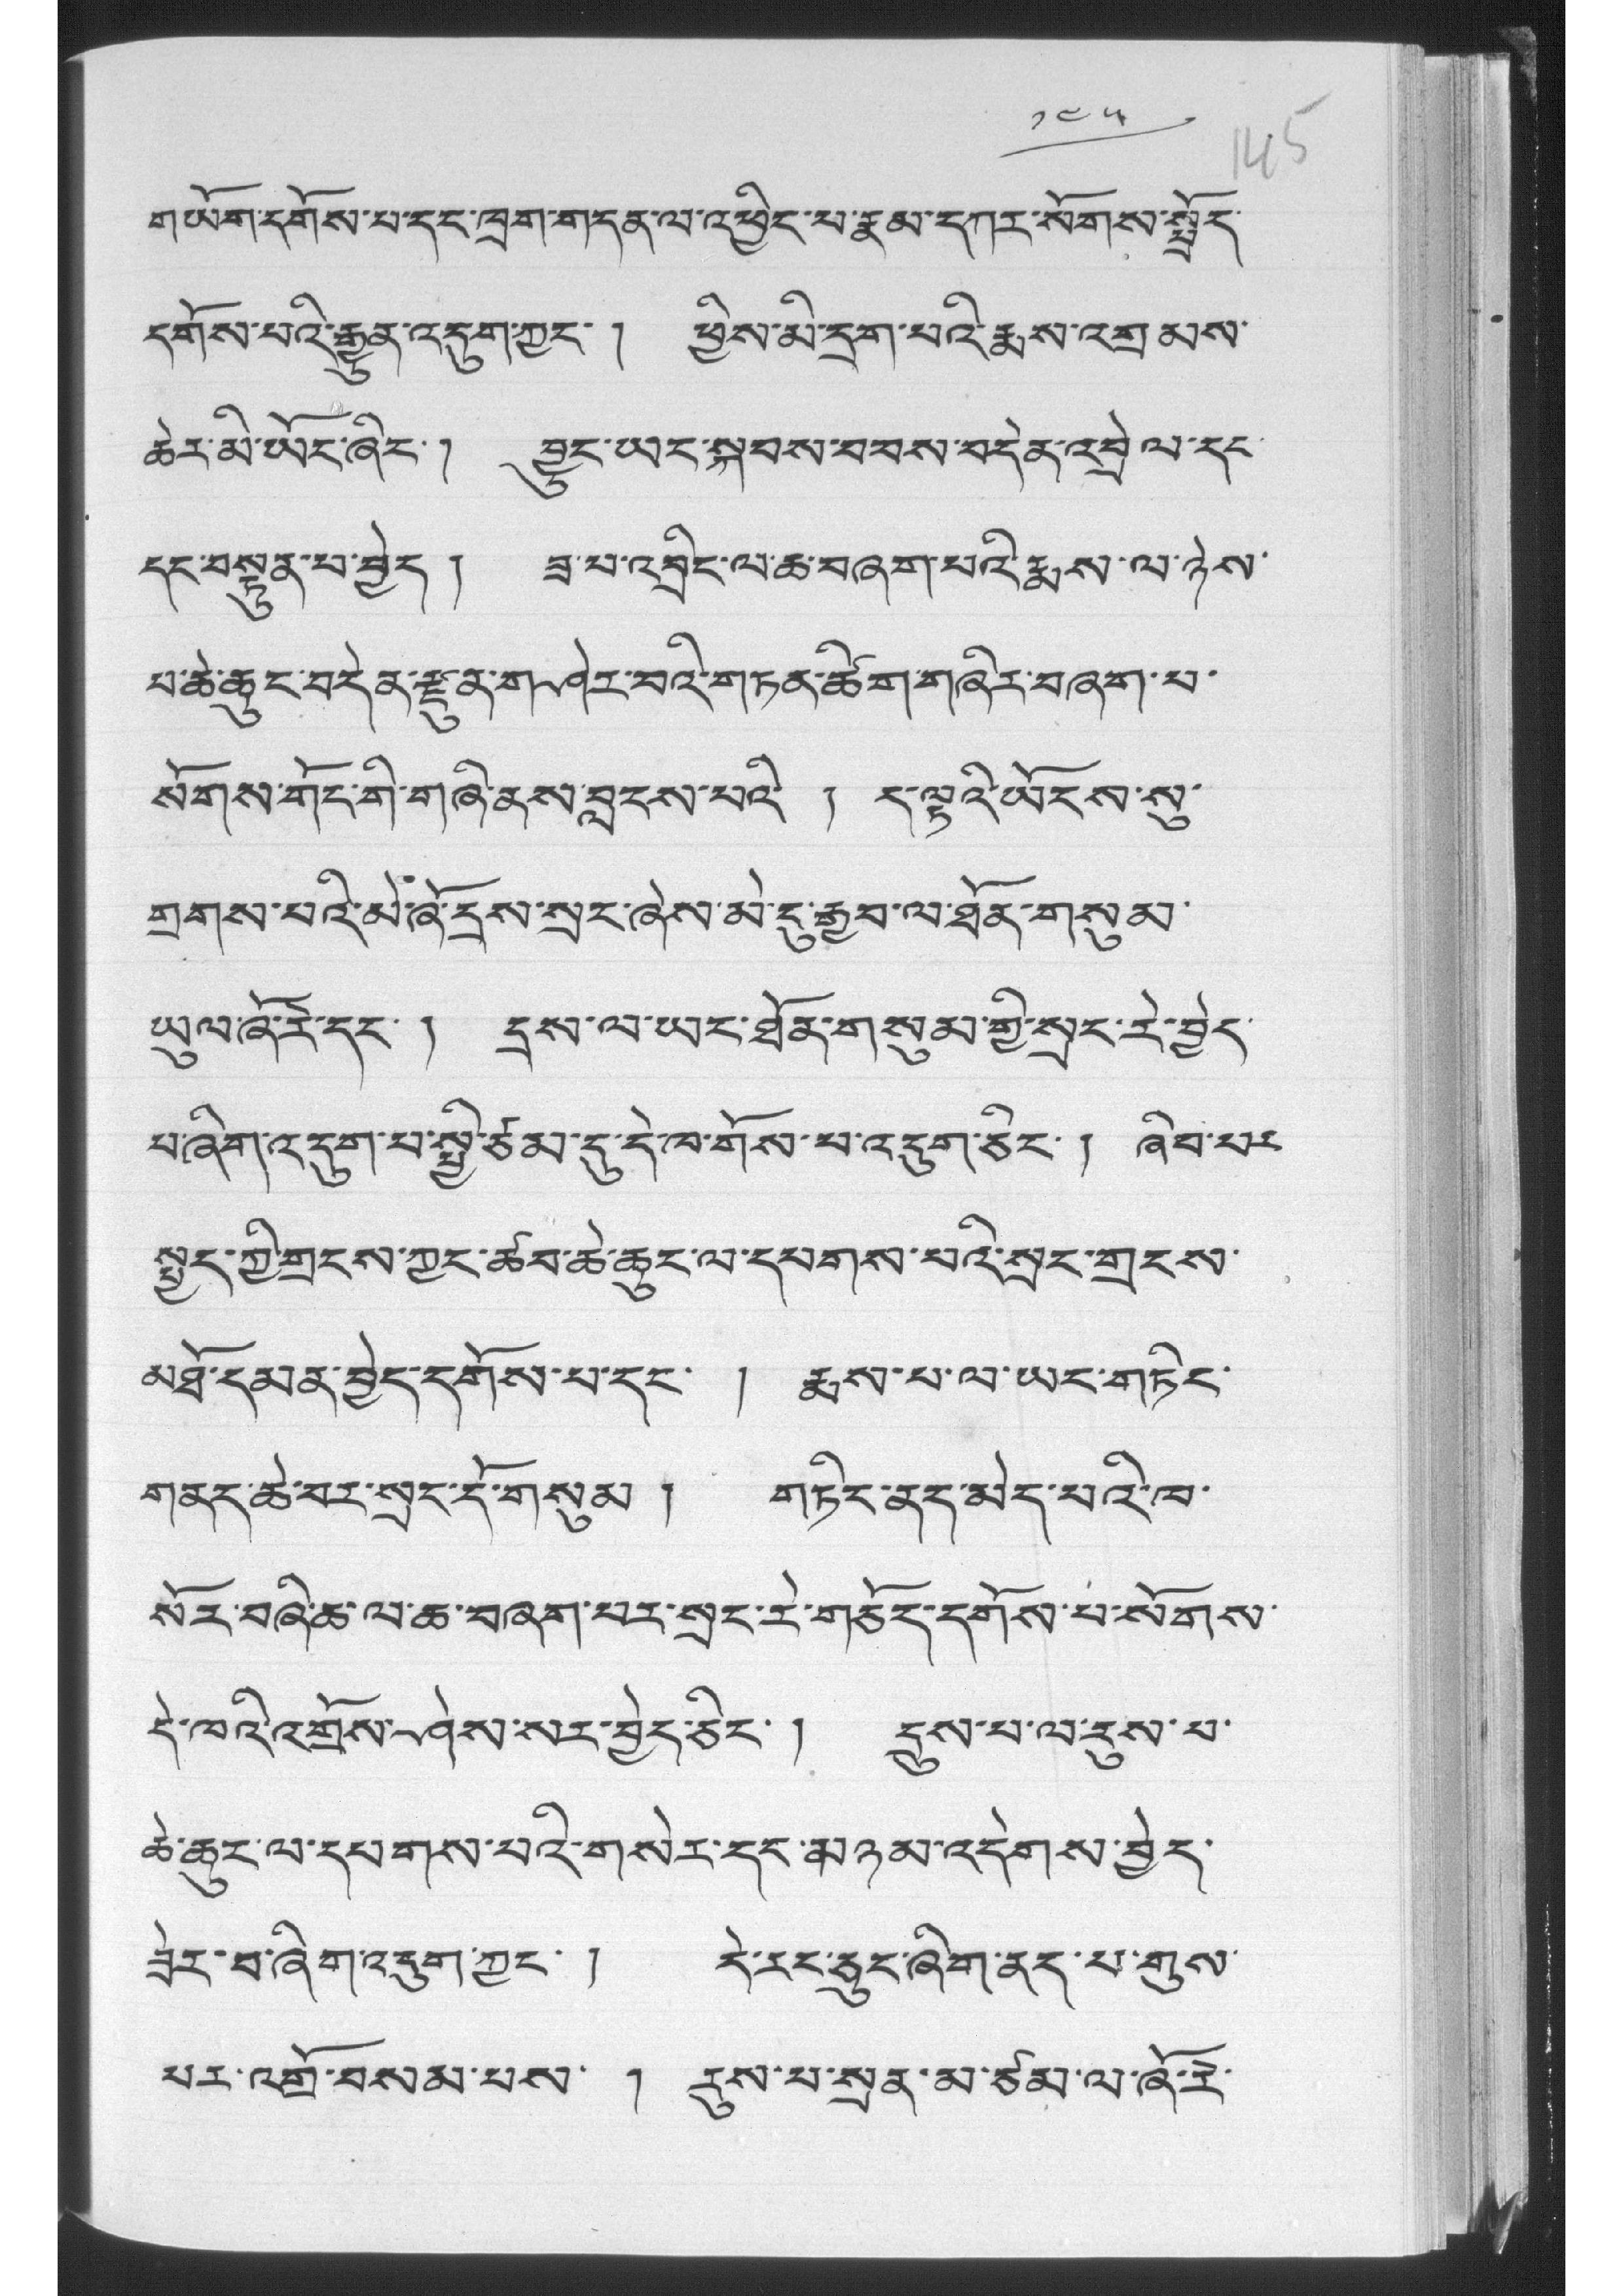༡༤༥
གཡོག་དགོས་པ་དང་ཁྲག་གདན་ལ་འཕྱིང་པ་རྣམ་དཀར་སོགས་སྤྲོད་
དགོས་པའི་རྒྱུན་འདུག་ཀྱང་ ། ཕྱིས་མི་དྲག་པའི་རྨས་འགྲམས་
ཆེར་མི་ཡོང་ཞིང་། བྱུང་ཡང་སྐབས་བབས་བདེན་འབྲེལ་དང་
དང་བསྟུན་པ་བྱེད། ཟ་པ་འབྲིང་ལ་ཆ་བཞག་པའི་རྨས་ལ་ཉེས་
པ་ཆེ་ཆུང་བདེན་རྫུན་གཤེར་བའི་གཏན་ཚིག་གཞིར་བཞག་པ་
སོགས་གོང་གི་གཞི་ནས་བླངས་པའི་ ། ད་ལྟའི་ཡོངས་སུ་
གྲགས་པའི་མེ་ཞོ་དྲས་སྲང་ཞེས་མེ་ངུ་རྒྱབ་ལ་ཐོན་གསུམ་
ཡུལ་ཞོ་རེ་དང་ ། དྲས་ལ་ཡང་ཐོན་གསུམ་གྱི་སྲང་རེ་བྱེད་
པ་ཞིག་འདུག་པ་སྤྱི་ཙམ་དུ་དེ་ཁ་གོས་པ་འདུག་ཅིང་། ཞིབ་པར་
སྤྱད་ཀྱི་གྲངས་ཀྱང་ཚབ་ཆེ་ཆུང་ལ་དཔགས་པའི་སྲང་གྲངས་
མཐོ་དམན་བྱེད་དགོས་པ་དང་ ། རྨས་པ་ལ་ཡང་གཏིང་
གནད་ཆེ་བར་སྲང་དོ་གསུམ ། གཏིང་ནད་མེད་པའི་ཁ་
སོར་བཞི་ཆ་ལ་ཆ་བཞག་པར་སྲང་རེ་གཅོད་དགོས་པ་སོགས་
དེ་ཁའི་འགྲོས་ཤེས་སར་བྱེད་ཅིང་། དྲུས་པ་ལ་རུས་པ་
ཆེ་ཆུང་ལ་དཔགས་པའི་གསེར་དང་མཉམ་འདེགས་བྱེད་
ཟེར་བ་ཞིག་འདུག་ཀྱང་ ། དེ་རང་ཅུང་ཞིག་ནད་པ་གུས་
པར་འགྲོ་བསམ་པས་ ། རུས་པ་སྲན་མ་ཙམ་ལ་ཞོ་རེ་
